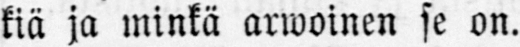kiä ja minkä arwoinen se on.
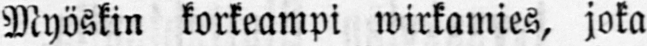Myöskin korkeampi wirkamies, joka
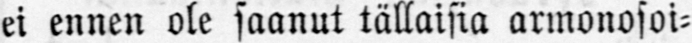ei ennen ole saanut tällaisia armonosoi-
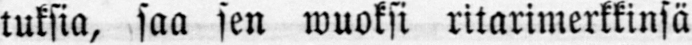tuksia, saa sen wuoksi ritarimerkkinsä
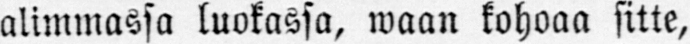alimmassa luokassa, waan kohoaa sitte,
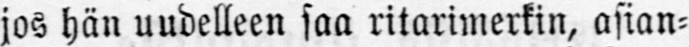jos hän uudelleen saa ritarimerkin, asian-
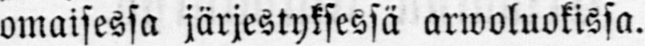omaisessa järjestyksessä arwoluokissa.
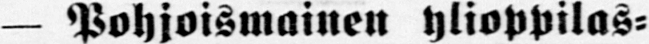— Pohjoismainen ylioppilas-
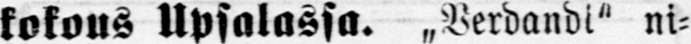kokous Upsalassa. „Verdandi" ni-
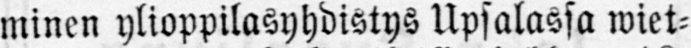minen ylioppilasyhdistys Upsalassa wiet-
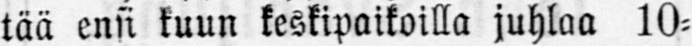tää ensi kuun keskipalkoilla juhlaa 10-
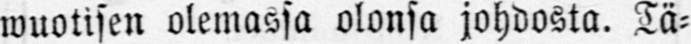wuotisen olemassa olonsa johdosta. Tä-
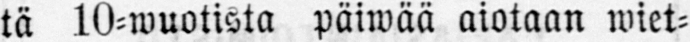tä 10-wuotista päiwää aiotaan wiet-
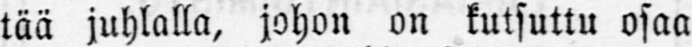tää juhlalla, johon on kutsuttu osaa
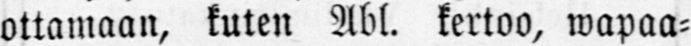ottamaan, kuten Abl. kertoo, wapaa-
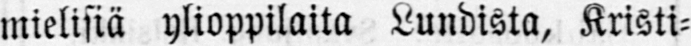mielisiä ylioppilaita Lundista, Kristi-
